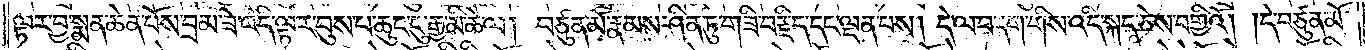ལྟར་བྱ་སྨན་ཆེན་པོས་བྲམ་ཟེ་འདི་ལྟར་བུས་པ་ཆུང་ངུ་རྒྱ་མི་ཆེ་ལ། བཙུན་མོ་རྣམས་ཤིན་ཏུ་གཟི་བརྗིད་དང་ལྡན་པས། དེ་ལ་བདག་གིས་འདི་སྐད་ཅེས་བགྱིའོ། །དེ་བཙུན་མོ་
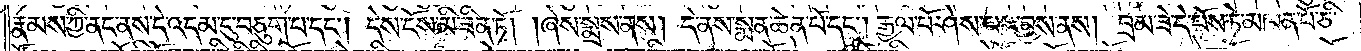རྣམས་ཀྱི་ནང་ནས་དེ་འདམ་དུ་བཅུག་པ་དང༌། དེས་ངོས་མི་ཟིན་ཏོ། །ཞེས་སྨྲས་ནས། དེ་ནས་སྨན་ཆེན་པོ་དང༌། རྒྱལ་པོ་ཤེས་པར་བྱས་ནས། བྲམ་ཟེ་དེ་པོས་ཏེ་མཁན་པོ་ཅི་
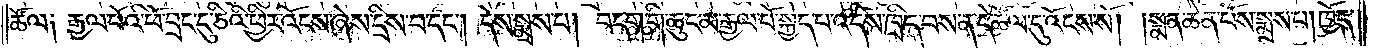ཚོལ༑ རྒྱལ་པོའི་ཕོ་བྲང་དུ་ཅིའི་ཕྱིར་འོངས་ཞེས་དྲིས་པ་དང༌། དེས་སྨྲས་པ། བདག་གི་ཆུང་མ་རྒྱལ་པོ་སྐྱེད་པ་འདིས་ཁྲིད་བས་ན་དེ་ཚོལ་དུ་འོངས་སོ། །སྨན་ཆེན་པོས་སྨྲས་པ། ཁྱོད་
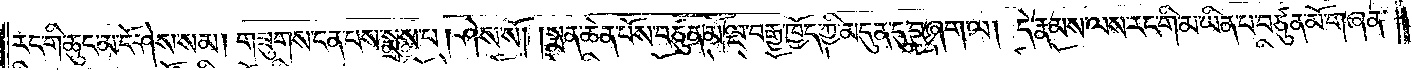རང་གི་ཆུང་མ་ངོ་ཤེས་སམ། གཟུགས་ངན་པས་སྨྲས་པ། ཤེས་སོ། །སྨན་ཆེན་པོས་བཙུན་མོ་ལྔ་བརྒྱ་ཁྱོད་ཀྱི་མདུན་དུ་བཞག་ལ། དེ་རྣམས་ལས་རང་གི་མ་ཡིན་པ་བཙུན་མོ་གཞན་
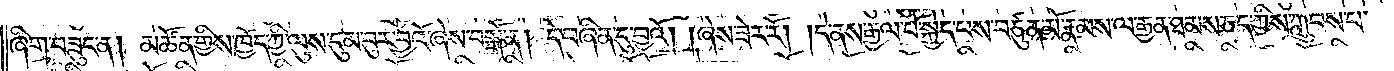ཞིག་བཟུང་ན། མཚོན་གྱིས་ཁྱོད་ཀྱི་ལུས་དུམ་བུར་བྱའོ་ཞེས་བསྒོ་ན། དེ་བཞིན་དུ་བྱའོ། །ཞེས་ཟེར་རོ། །དེ་ནས་རྒྱལ་པོ་སྐྱེད་པས་བཙུན་མོ་རྣམས་ལ་རྒྱན་ཐམས་ཅད་ཀྱིས་ཀླུབས་པ་
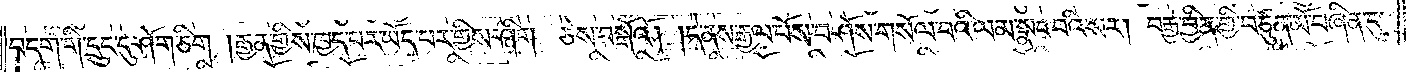བདག་གི་དྲུང་དུ་ཤོག་ཅིག །རྒྱན་གྱིས་ཁྱད་པར་ཡོད་པར་གྱིས་ཤིག་ཅེས་བསྒོའོ། །དེ་ནས་རྒྱལ་པོས་བཤོས་གསོལ་པའི་ལམ་སྣང་བའི་སར། བརྒྱ་བྱིན་གྱི་བཙུན་མོ་བཞིན་དུ་
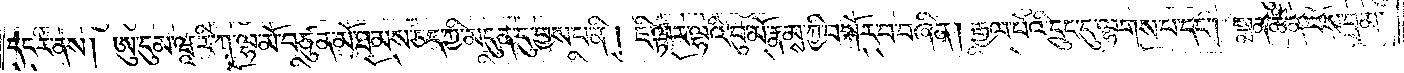དངར་ནས། ཨུ་དུམ་ཝཱ་རི་ཀ་ལྷ་མོ་བཙུན་མོ་ཐམས་ཅད་ཀྱི་མདུན་དུ་བྱས་པ་ནི། ཇི་ལྟར་ལྷའི་བུ་མོ་རྣམས་ཀྱི་བསྐོར་བ་བཞིན། རྒྱལ་པོའི་དྲུང་དུ་ལྷགས་པ་དང༌། སྨན་ཆེན་པོས་བྲམ་
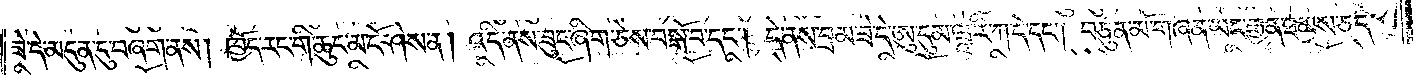ཟེ་དེ་མདུན་དུ་བཞག་ནས། ཁྱོད་རང་གི་ཆུང་མ་ངོ་ཤེས་ན། འདི་ནས་ཟུང་ཞིག་ཅེས་བསྒོ་བ་དང༌། དེ་ནས་བྲམ་ཟེ་དེ་ཨུ་དུམ་ཝཱ་རི་ཀ་དེ་དང༌། བཙུན་མོ་གཞན་ཡང་རྒྱན་ཐམས་ཅད་
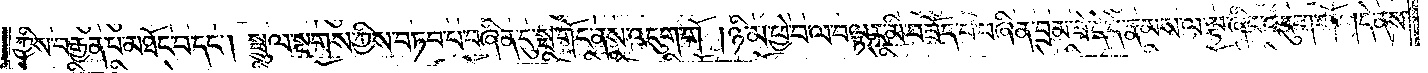ཀྱིས་བརྒྱན་པ་མཐོང་བ་དང༌། སྦྲུལ་སྔགས་ཀྱིས་བཏབ་པ་བཞིན་དུ་སྤ་གོང་ནས་འདུག་གོ །ཉི་མ་ཕྱེ་བ་ལ་བལྟར་མི་བཟོད་པ་བཞིན་བྲམ་ཟེ་དེ་དེ་རྣམས་ལ་ལྟ་ཞིང་འདུག་གོ །དེ་ནས་
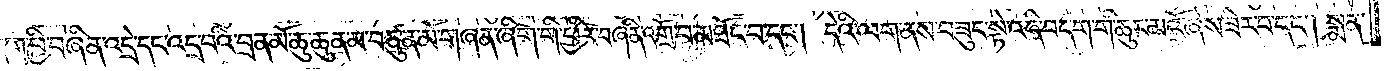དག་ཕྱི་བཞིན་འདྲེ་དང་འདྲ་བའི་བྲན་མོ་ཆུ་ཆུན་མ་བཙུན་མོ་གཞན་ཞིག་གི་ཕྱིར་བཞིན་འགྲོ་བ་མཐོང་བ་དང༌། དེའི་ལག་ནས་བཟུང་སྟེ་འདི་བདག་གི་ཆུང་མའོ་ཞེས་ཟེར་བ་དང༌། སྨན་
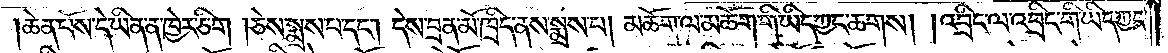ཆེན་པོས་དེ་ཡིན་ན་ཁྱེར་ཅིག །ཅེས་སྨྲས་པ་དང༌། དེས་བྲན་མོ་ཁྲིད་ནས་སྨྲས་པ། མཆོག་ལ་མཆོག་གི་ཡིད་ཀྱང་ཆགས། །འབྲིང་ལ་འབྲིང་གི་ཡིད་ཀྱང་
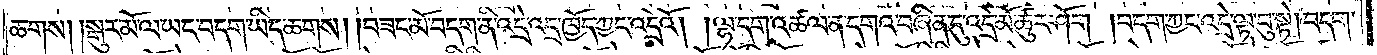ཆགས། །སྒུར་མོ་ལ་ཡང་བདག་ཡིད་ཆགས། །བཟང་མོ་བདག་ནི་འདྲེ་འདྲ་ཁྱོད་ཀྱང་འདྲེའོ། །ལྷ་དག་འཚལ་ན་དགའ་བཞིན་དུ་འདྲེ་མོ་ཚུར་ཤོག །བདག་ཀྱང་འདྲེ་ལྟ་བུ་སྟེ། བདག་
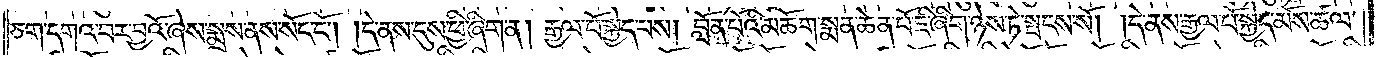ཅག་དགའ་བར་བྱའོ་ཞེས་སྨྲས་ནས་སོང་ངོ༌། །དེ་ནས་དུས་ཕྱི་ཞིག་ན། རྒྱལ་པོ་སྐྱེད་པས། བློན་པོའི་མཆོག་སྨན་ཆེན་པོ་ཇི་ཞིག་ཉེས་ཏེ་སྤངས་སོ། །དེ་ནས་རྒྱལ་པོ་སྐྱེད་མོས་ཚལ་
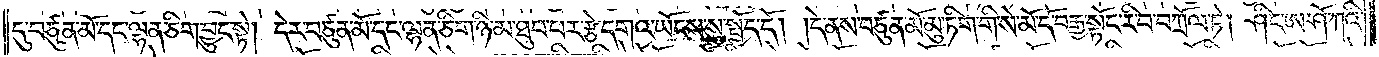དུ་བཙུན་མོ་དང་ལྷན་ཅིག་བྱུང་སྟེ། དེར་བཙུན་མོ་དང་ལྷན་ཅིག་ཉི་མ་ཐུབ་པར་རྩེ་དགའ་ཡོངས་སུ་སྤྱོད་དོ། །དེ་ནས་བཙུན་མོ་མུ་ཏིག་གི་སེ་མོ་དོ་བརྒྱ་སྟོང་རི་བ་བཀྲོལ་ཏེ། ཤིང་ཨ་ཤོ་ཀའི་
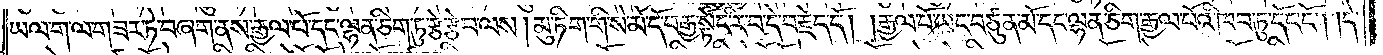ཡལ་ག་ལ་གཟར་ཏེ་བཞག་ནས་རྒྱལ་པོ་དང་ལྷན་ཅིག་ཏུ་རྩེ་རྩེ་བ་ལས། མུ་ཏིག་གི་སེ་མོ་དོ་བརྒྱ་སྟོང་རི་བ་དེ་བརྗེད་དོ། །རྒྱལ་པོ་ཡང་བཙུན་མོ་དང་ལྷན་ཅིག་རྒྱལ་པོའི་ཁབ་ཏུ་དོང་ངོ༌། །དེ་
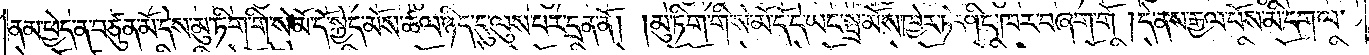ནམ་ཕྱེད་ན་བཙུན་མོ་དེས་མུ་ཏིག་གི་སེ་མོ་དོ་སྐྱེད་མོས་ཚལ་ཉིད་དུ་ལུས་པར་དྲན་ནོ། །མུ་ཏིག་གི་སེ་མོ་དོ་དེ་ཡང་སྤྲ་མོས་ཁྱེར་ཏེ་ཤིང་ཁར་བཞག་གོ །དེ་ནས་རྒྱལ་པོས་མི་དག་ལ་
